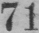71
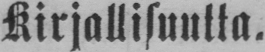Kirjallisuutta.
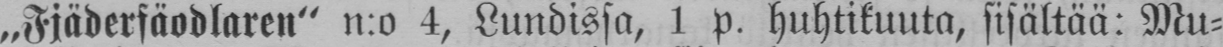„Fjäderfäodlaren" n:o 4, Lundissa, 1 p. huhtikuuta, sisältää: Mu-
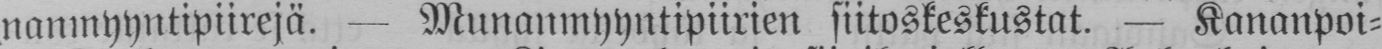nanmyyntipiirejä. — Munanmyyntipiirien siitoskeskustat. — Kananpoi-
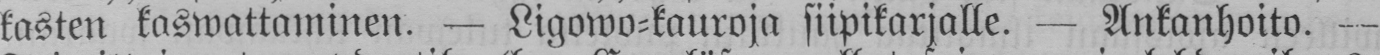kasten kaswattaminen. — Ligowo-kaurosa siipikarjalle. — Ankanhoito. —
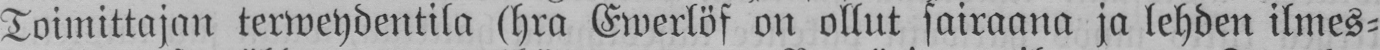Toimittajan terweydentila (hra Ewerlöf on ollut sairaana ja lehden ilmes-
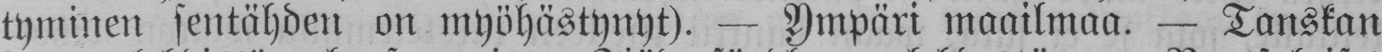tyminen sentähden on myöhästynyt). — Ympäri maailmaa. — Tanskan
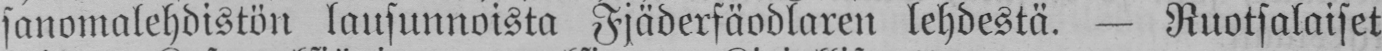sanomalehdistön lausunnoista Fjäderfäodlaren lehdestä. — Ruotsalaiset
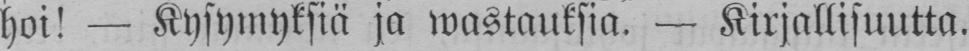hoi! — Kysymyksiä ja wastauksia. — Kirjallisuutta.
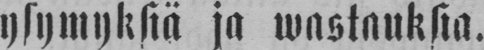Kysymyksiä ja wastauksia.
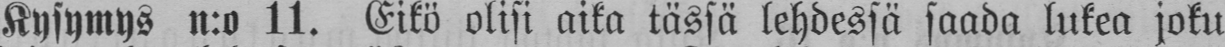Kysymys n:o 11. Eikö olisi aika tässä lehdessä saada lukea joku
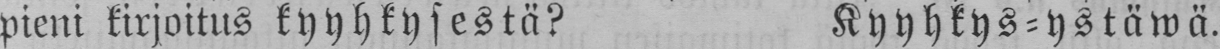pieni kirjoitus kyyhkysestä? Kyyhkys-ystäwä.
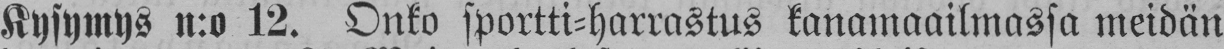Kysymys n:o 12. Onko sportti-harrastus kanamaailmassa meidän
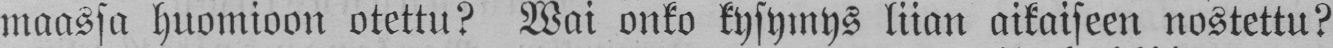maassa huomioon otettu? Wai onko kysymys liian aikaiseen nostettu?
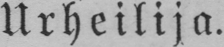Urheilija.
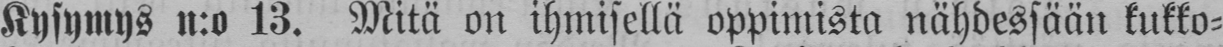Kysymys n:o 13. Mitä on ihmisellä oppimista nähdessään kukko-
